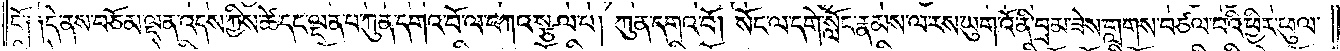ངོ༌། །དེ་ནས་བཅོམ་ལྡན་འདས་ཀྱིས་ཚེ་དང་ལྡན་པ་ཀུན་དགའ་བོ་ལ་བཀའ་སྩལ་པ། ཀུན་དགའ་བོ། སོང་ལ་དགེ་སློང་རྣམས་ལ་རས་ཡུག་འོ་ནི་བྲམ་ཟེས་གླགས་བཙལ་བའི་ཕྱིར་ཕུལ་
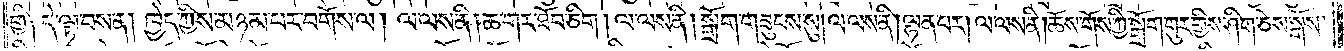གྱི། དེ་ལྟ་བས་ན། ཁྱེད་ཀྱིས་མཉམ་པར་བགོས་ལ། ལ་ལས་ནི། ཆ་གར་ཐོབ་ཅིག །ལ་ལས་ནི། སྒྲོག་གཟུངས་སུ། ལ་ལས་ནི། ལྷན་པར། ལ་ལས་ནི། ཆོས་གོས་ཀྱི་སྒྲོག་གུར་གྱིས་ཤིག་ཅེས་སྒོས་
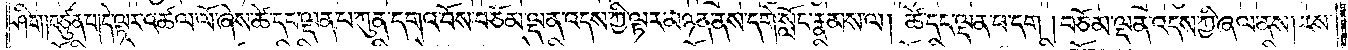ཤིག །བཙུན་པ། དེ་ལྟར་འཚལ་ལོ་ཞེས་ཚེ་དང་ལྡན་པ་ཀུན་དགའ་བོས་བཅོམ་ལྡན་འདས་ཀྱི་ལྟར་མཉན་ནས་དགེ་སློང་རྣམས་ལ། ཚེ་དང་ལྡན་པ་དག །བཅོམ་ལྡན་འདས་ཀྱི་ཞལ་ནས། རས་
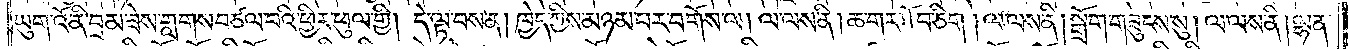ཡུག་འོ་ནི་བྲམ་ཟེས་གླགས་བཙལ་བའི་ཕྱིར་ཕུལ་གྱི། དེ་ལྟ་བས་ན། ཁྱེད་ཀྱིས་མཉམ་པར་བགོས་ལ། ལ་ལས་ནི། ཆ་གར་ཐོབ་ཅིག །ལ་ལས་ནི། སྒྲོག་གཟུངས་སུ། ལ་ལས་ནི། ལྷན་
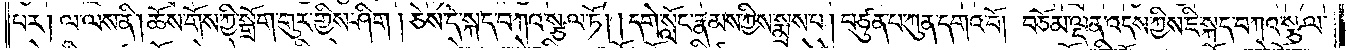པར། ལ་ལས་ནི། ཆོས་གོས་ཀྱི་སྒྲོག་གུར་གྱིས་ཤིག །ཅེས་དེ་སྐད་བཀའ་སྩལ་ཏོ། །དགེ་སློང་རྣམས་ཀྱིས་སྨྲས་པ། བཙུན་པ་ཀུན་དགའ་བོ། བཅོམ་ལྡན་འདས་ཀྱིས་ཇི་སྐད་བཀའ་སྩལ་
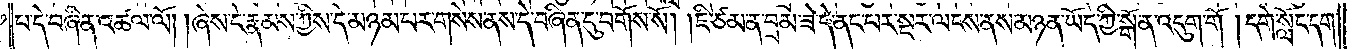པ་དེ་བཞིན་འཚལ་ལོ། །ཞེས་དེ་རྣམས་ཀྱིས་དེ་མཉམ་པར་གསེས་ནས་དེ་བཞིན་དུ་བགོས་སོ། །ཇི་ཙམ་ན་བྲམ་ཟེ་དེ་ནང་པར་སྔར་ལ་ངས་ནས་མཉན་ཡོད་ཀྱི་སྒོ་ན་འདུག་གོ །དགེ་སློང་དག་
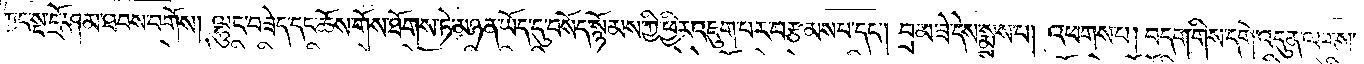ཀྱང་སྔ་དྲོ་ཤམ་ཐབས་བགོས། ལྷུང་བཟེད་དང་ཆོས་གོས་ཐོགས་ཏེ་མཉན་ཡོད་དུ་བསོད་སྙོམས་ཀྱི་ཕྱིར་འཇུག་པར་བརྩམས་པ་དང༌། བྲམ་ཟེ་དེས་སྨྲས་པ། འཕགས་པ། བདག་གིས་དགེ་འདུན་ལ་རས་
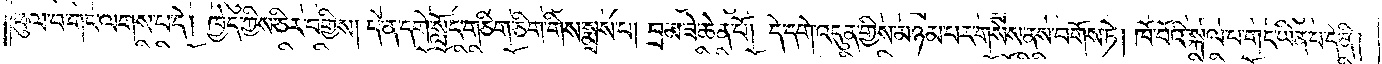ཕུལ་བ་གང་ལགས་པ་དེ། ཁྱེད་ཀྱིས་ཅིར་བགྱིས། དེ་ན་དགེ་སློང་གཅིག་ཅིག་གིས་སྨྲས་པ། བྲམ་ཟེ་ཆེན་པོ། དེ་དགེ་འདུན་གྱིས་མཉམ་པར་གསེས་ནས་བགོས་ཏེ། ཁོ་བོའི་སྐལ་པ་གང་ཡིན་པ་དེ་ནི།
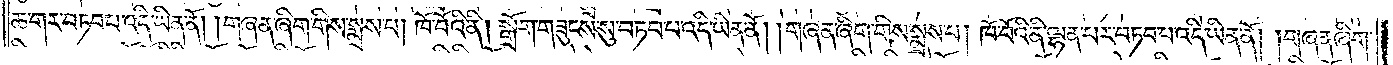ཆ་གར་བཏབ་པ་འདི་ཡིན་ནོ། །གཞན་ཞིག་གིས་སྨྲས་པ། ཁོ་བོའི་ནི། སྒྲོག་གཟུངས་སུ་བཏབ་པ་འདི་ཡིན་ནོ། །གཞན་ཞིག་གིས་སྨྲས་པ། ཁོ་བོའི་ནི་ལྷན་པར་བཏབ་པ་འདི་ཡིན་ནོ། །གཞན་ཞིག་
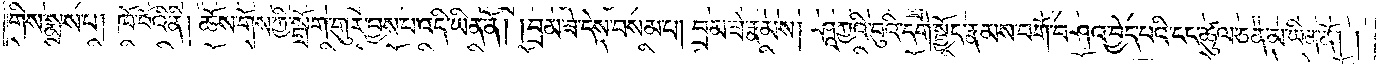གིས་སྨྲས་པ། ཁོ་བོའི་ནི། ཆོས་གོས་ཀྱི་སྒྲོག་གུར་བྱས་པ་འདི་ཡིན་ནོ། །བྲམ་ཟེ་དེས་བསམ་པ། བྲམ་ཟེ་རྣམས། ཤཱཀྱའི་བུའི་དགེ་སྦྱོང་རྣམས་བགོ་བཤའ་བྱེད་པའི་ངང་ཚུལ་ཅན་མ་ཡིན་ནོ། །
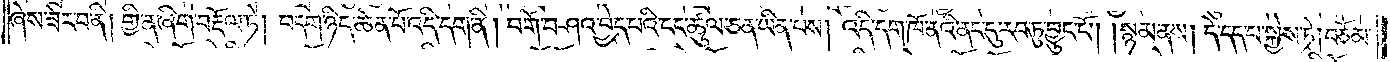ཞེས་ཟེར་བ་ནི། གྱི་ན་ཞིག་བརྡོལ་ཏེ། བདག་ཉིད་ཆེན་པོ་འདི་དག་ནི། བགོ་བཤའ་བྱེད་པའི་ངང་ཚུལ་ཅན་ཡིན་པས། འདི་དག་ཁོ་ནའི་ནང་དུ་རབ་ཏུ་བྱུང་ངོ༌། །སྙམ་ནས། དེ་དད་པ་སྐྱེས་ཏེ། བཅོམ་
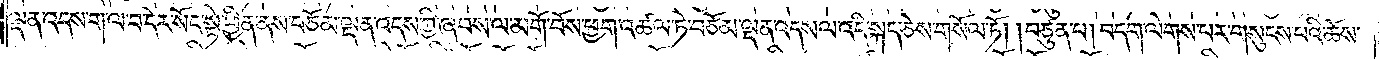ལྡན་འདས་ག་ལ་བ་དེར་སོང་སྟེ་ཕྱིན་ནས་བཅོམ་ལྡན་འདས་ཀྱི་ཞབས་ལ་མགོ་བོས་ཕྱག་འཚལ་ཏེ་བཅོམ་ལྡན་འདས་ལ་འདི་སྐད་ཅེས་གསོལ་ཏོ། །བཙུན་པ། བདག་ལེགས་པར་གསུངས་པའི་ཆོས་
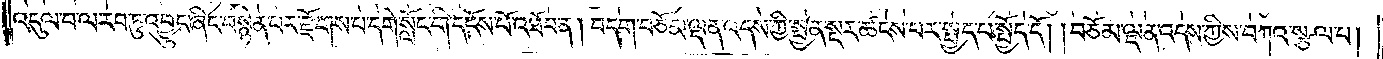འདུལ་བ་ལ་རབ་ཏུ་འབྱུང་ཞིང་བསྙེན་པར་རྫོགས་པ་དགེ་སློང་གི་དངོས་པོ་འཐོབ་ན། བདག་བཅོམ་ལྡན་འདས་ཀྱི་སྤྱན་སྔར་ཚངས་པར་སྤྱད་པ་སྤྱོད་དོ། །བཅོམ་ལྡན་འདས་ཀྱིས་བཀའ་སྩལ་པ།
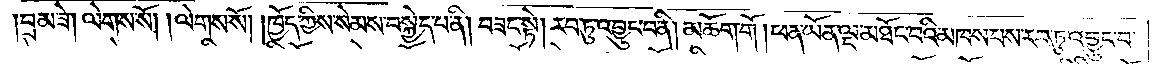བྲམ་ཟེ། ལེགས་སོ། །ལེགས་སོ། །ཁྱོད་ཀྱིས་སེམས་བསྐྱེད་པ་ནི། བཟང་སྟེ། རབ་ཏུ་འབྱུང་བ་ནི། མཆོག་གོ །ཕན་ཡོན་ལྔ་མཐོང་བའི་མཁས་པས་རབ་ཏུ་འབྱུང་བ་
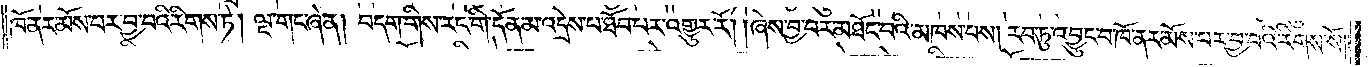ཁོ་ནར་མོས་པར་བྱ་བའི་རིགས་ཏེ། ལྔ་གང་ཞེ་ན། བདག་གིས་རང་གི་དོན་མ་འདྲེས་པ་ཐོབ་པར་འགྱུར་རོ། །ཞེས་བྱ་བར་མཐོང་བའི་མཁས་པས། རབ་ཏུ་འབྱུང་བ་ཁོ་ནར་མོས་པར་བྱ་བའི་རིགས་སོ།
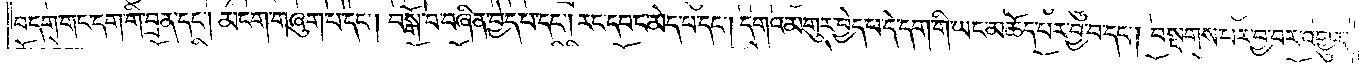བདག་གང་དག་གི་བྲན་དང༌། མངག་གཞུག་པ་དང༌། བསྒོ་བ་བཞིན་བྱེད་པ་དང༌། རང་དབང་མེད་པ་དང༌། དགའ་མགུར་བྱེད་པ་དེ་དག་གི་ཡང་མཆོད་པར་བྱ་བ་དང༌། བསྔགས་པར་བྱ་བར་འགྱུར་
